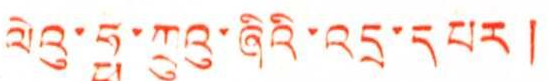ལེའུ་ཧྥུ་ཀྲུའུ་ཞིའི་འདྲ་དཔར །
